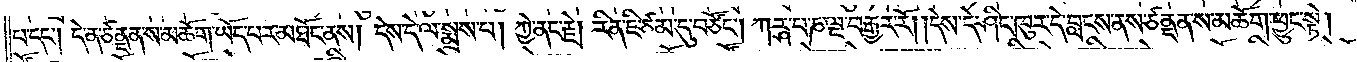པ་དང༌། དེ་ན་ཙནྡན་ས་མཆོག་ཡོད་པར་མཐོང་ནས། དེས་དེ་ལ་སྨྲས་པ། ཀྱེ་ནང་རྗེ། རིན་ཇི་ཙམ་དུ་བཙོང༌། ཀཪྴ་པ་ཎ་ལྔ་བརྒྱར་རོ། །དེས་དེ་ཤིང་ཁུར་དེ་བླངས་ནས་ཙནྡན་ས་མཆོག་ཕྱུང་སྟེ།
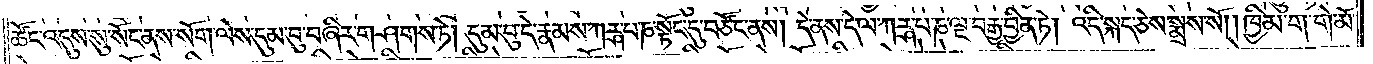ཚོང་འདུས་སུ་སོང་ནས་སོག་ལེས་དུམ་བུ་བཞིར་གཤགས་ཏེ། དུམ་བུ་དེ་རྣམས་ཀཪྴ་པ་ཎ་སྟོང་དུ་བཙོང་ནས། དེ་ནས་དེ་ལ་ཀཪྴ་པ་ཎ་ལྔ་བརྒྱ་བྱིན་ཏེ། འདི་སྐད་ཅེས་སྨྲས་སོ། །ཁྱིམ་ག་གེ་མོ་
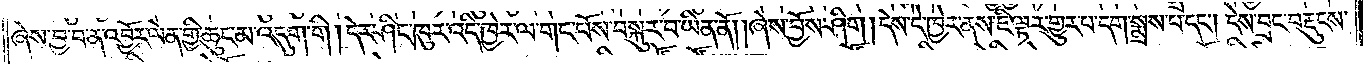ཞེས་བྱ་བ་ན་འབྱོར་ལེན་གྱི་ཆུང་མ་འདུག་གི །དེར་ཤིང་ཁུར་འདི་ཁྱེར་ལ་གང་པོས་བསྐུར་བ་ཡིན་ནོ། །ཞེས་བྱོས་ཤིག །དེས་དེ་ཁྱེར་ནས་ཇི་ལྟར་གྱུར་པ་དག་སྨྲས་པ་དང༌། དེས་བྲང་བརྡུངས་
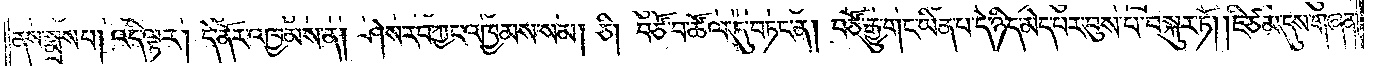ནས་སྨྲས་པ། འདི་ལྟར། དེ་ནོར་འཁྱམས་ན། ཤེས་རབ་ཀྱང་འཁྱམས་སམ། ཅི། བཙོ་བ་ཚོལ་དུ་བཏང་ན། བཙོ་རྒྱུ་གང་ཡིན་པ་དེ་ཉིད་མེད་པར་བུས་པ་བསྐུར་ཏོ། །ཇི་ཙམ་དུས་གཞན་
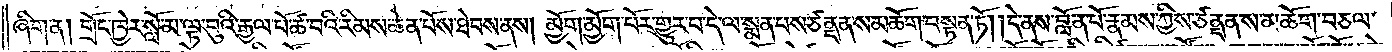ཞིག་ན། གྲོང་ཁྱེར་སློ་མ་ལྟ་བུའི་རྒྱལ་པོ་ཚ་བའི་རིམས་ཆེན་པོས་ཐེབས་ནས། མྱོག་མྱོག་པོར་གྱུར་པ་དེ་ལ་སྨན་པས་ཙནྡན་ས་མཆོག་བསྟན་ཏོ། །དེ་ནས་བློན་པོ་རྣམས་ཀྱིས་ཙནྡན་ས་མཆོག་བཅལ་
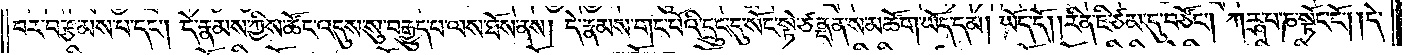བར་བརྩམས་པ་དང༌། དེ་རྣམས་ཀྱིས་ཚོང་འདུས་སུ་བརྒྱུད་པ་ལས་ཐོས་ནས། དེ་རྣམས་གང་པོའི་དྲུང་དུ་སོང་སྟེ་ཙནྡན་ས་མཆོག་ཡོད་དམ། ཡོད་དོ། །རིན་ཇི་ཙམ་དུ་བཙོང༌། ཀཪྴ་པ་ཎ་སྟོང་ངོ༌། །དེ་
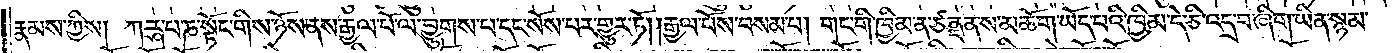རྣམས་ཀྱིས། ཀཪྴ་པ་ཎ་སྟོང་གིས་ཉོས་ནས་རྒྱལ་པོ་ལ་བྱུགས་པ་དང་སོས་པར་གྱུར་ཏོ། །རྒྱལ་པོས་བསམ་པ། གང་གི་ཁྱིམ་ན་ཙནྡན་ས་མཆོག་ཡོད་པའི་ཁྱིམ་དེ་ཅི་འདྲ་བ་ཞིག་ཡིན་སྙམ་
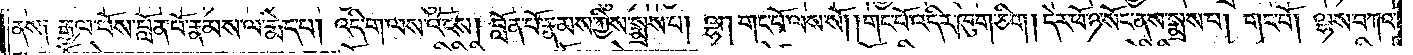ནས༑ རྒྱལ་པོས་བློན་པོ་རྣམས་ལ་རྨེད་པ། འདི་ག་ལས་འོངས། བློན་པོ་རྣམས་ཀྱིས་སྨྲས་པ། ལྷ། གང་པོ་ལས་སོ། །གང་པོ་འདིར་ཁུག་ཅིག །དེར་ཕོ་ཉ་སོང་ནས་སྨྲས་པ། གང་པོ། ལྷས་བཀའ་
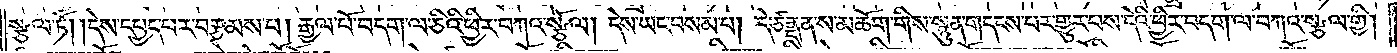སྩལ་ཏོ། །དེས་དཔྱད་པར་བརྩམས་པ། རྒྱལ་པོ་བདག་ལ་ཅིའི་ཕྱིར་བཀའ་སྩོལ། དེས་ཡང་བསམ་པ། དེ་ཙནྡན་ས་མཆོག་གིས་སྙུན་གདངས་པར་གྱུར་པས་དེའི་ཕྱིར་བདག་ལ་བཀའ་སྩལ་གྱི།
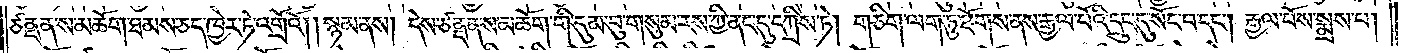ཙནྡན་ས་མཆོག་ཐམས་ཅད་ཁྱེར་ཏེ་འགྲོའོ། །སྙམ་ནས། དེས་ཙནྡན་ས་མཆོག་གི་དུམ་བུ་གསུམ་རས་ཀྱི་ནང་དུ་དཀྲིས་ཏེ། གཅིག་ལག་ཏུ་ཐོགས་ནས་རྒྱལ་པོའི་དྲུང་དུ་སོང་བ་དང༌། རྒྱལ་པོས་སྨྲས་པ།
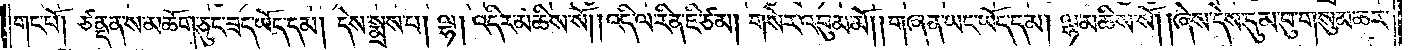གང་པོ། ཙནྡན་ས་མཆོག་ཅུང་ཟད་ཡོད་དམ། དེས་སྨྲས་པ། ལྷ། འདིར་མཆིས་སོ། །འདི་ལ་རིན་ཇི་ཙམ། གསེར་འབུམ་མོ། །གཞན་ཡང་ཡོད་དམ། ལྷ་མཆིས་སོ། །ཞེས་དེས་དུམ་བུ་གསུམ་ཆར་
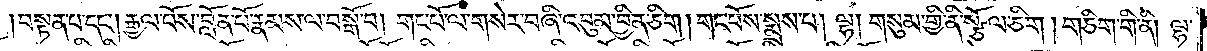བསྟན་པ་དང༌། རྒྱལ་པོས་བློན་པོ་རྣམས་ལ་བསྒོ་བ། གང་པོ་ལ་གསེར་བཞི་འབུམ་བྱིན་ཅིག། གང་པོས་སྨྲས་པ། ལྷ། གསུམ་གྱི་ནི་སྩོལ་ཅིག །གཅིག་གི་ནི། ལྷ་
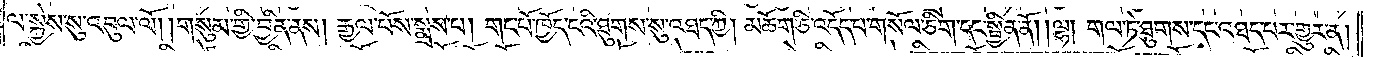ལ་སྐྱེས་སུ་འབུལ་ལོ། །གསུམ་གྱི་བྱིན་ནས། རྒྱལ་པོས་སྨྲས་པ། གང་པོ་ཁྱོད་ངའི་ཐུགས་སུ་འཐད་ཀྱི། མཆོག་ཅི་འདོད་པ་གསོལ་ཅིག་དང་སྦྱིན་ནོ། །ལྷ། གལ་ཏེ་ཐུགས་དང་འཐད་པར་གྱུར་ན།
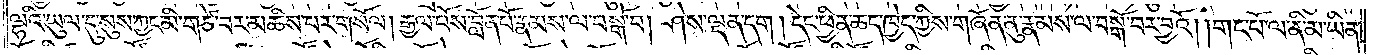ལྷའི་ཡུལ་དུ་སུས་ཀྱང་མི་གཙེ་བར་མཆིས་པར་གསོལ། རྒྱལ་པོས་བློན་པོ་རྣམས་ལ་བསྒོ་བ། ཤེས་ལྡན་དག །དེང་ཕྱིན་ཆད་ཁྱེད་ཀྱིས་གཞོན་ནུ་རྣམས་ལ་བསྒོ་བར་བྱའོ། །གང་པོ་ལ་ནི་མ་ཡིན་
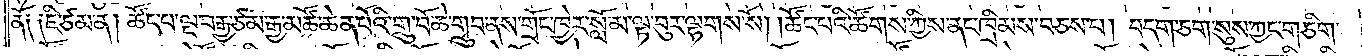ནོ༑ ༑ཇི་ཙམ་ན། ཚོང་པ་ལྔ་བརྒྱ་ཙམ་རྒྱ་མཚོ་ཆེན་པོའི་གྲུ་བོ་ཆེ་གྲུབ་ནས་གྲོང་ཁྱེར་སློ་མ་ལྟ་བུར་ལྷགས་སོ། །ཚོང་པའི་ཚོགས་ཀྱིས་ནང་ཁྲིམས་བཅས་པ། བདག་ཅག་སུས་ཀྱང་གཅིག་
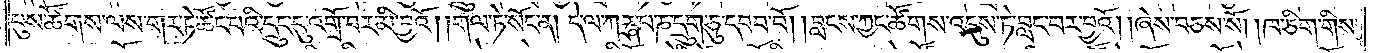པུས་ཚོགས་ལས་གར་ཏེ་ཚོང་པའི་དྲུང་དུ་འགྲོ་བར་མི་བྱའོ། །གལ་ཏེ་སོང་ན། དེ་ལ་ཀཪྴ་པ་ཎ་དྲུག་ཅུ་དབབ་པོ། །བླངས་ཀྱང་ཚོགས་འདུས་ཏེ་བླང་བར་བྱའོ། །ཞེས་བཅས་སོ། །ཁ་ཅིག་གིས་
